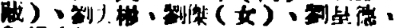藏）、劉力彬、劉傑（女）、劉呈德、
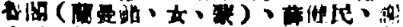魯閣（蘭曼錯、女、蒙）、薛健民、謝
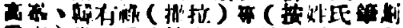高峯、韓有祿（撒拉）等（按姓氏筆畫
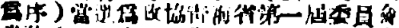爲序）當選爲政協青海省第一屆委員會
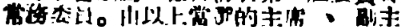常務委員。由以上當選的主席 、副主
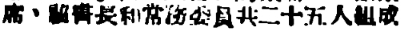席、祕書長和常務委員共二十五人組成
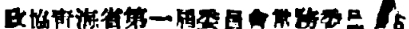政協靑海省第一屆委員會常務委員 。
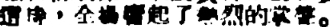這時，全場響起了熱烈的掌聲。
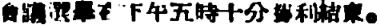會議選舉在下午五時十分勝利結束。
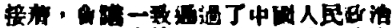接着，會議一致通過了中國人民政治
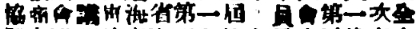協商會議靑海省第一屆委員會第一次全
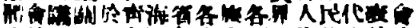體會議關於靑海省各族各界人民代表會
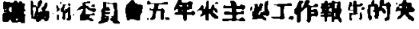議協商委員會五年來主要工作報告的決
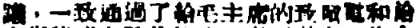議，一致通過了給毛主席的致敬電和給
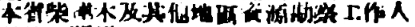本省柴達木及其他地區資源勘察工作人
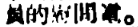員的慰問電。
